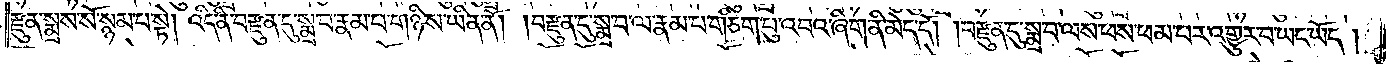རྫུན་སྨྲས་སོ་སྙམ་པ་སྟེ། འདི་ནི་བརྫུན་དུ་སྨྲ་བ་རྣམ་པ་གཉིས་ཡིན་ནོ། །བརྫུན་དུ་སྨྲ་བ་ལ་རྣམ་པ་གཅིག་པུ་འབའ་ཞིག་ནི་མེད་དོ། །བརྫུན་དུ་སྨྲ་བ་ལས་ཕས་ཕམ་པར་འགྱུར་པ་ཡང་ཡོད།
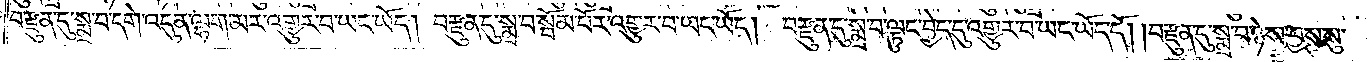བརྫུན་དུ་སྨྲ་བ་དགེ་འདུན་ལྷག་མར་འགྱུར་བ་ཡང་ཡོད། བརྫུན་དུ་སྨྲ་བ་སྦོམ་པོར་འགྱུར་བ་ཡང་ཡོད། བརྫུན་དུ་སྨྲ་བ་ལྟུང་བྱེད་དུ་འགྱུར་བ་ཡང་ཡོད་དོ། །བརྫུན་དུ་སྨྲ་བ་ཉེས་བྱས་སུ་
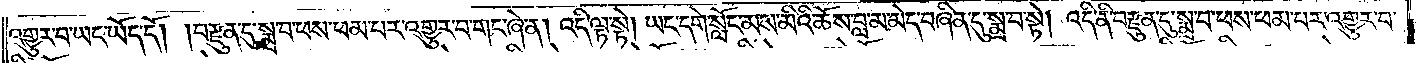འགྱུར་བ་ཡང་ཡོད་དོ། །བརྫུན་དུ་སྨྲ་བ་ཕས་ཕམ་པར་འགྱུར་བ་གང་ཞེ་ན། འདི་ལྟ་སྟེ། ཡང་དགེ་སློང་མས་མིའི་ཆོས་བླ་མ་མེད་བཞིན་དུ་སྨྲ་བ་སྟེ། འདི་ནི་བརྫུན་དུ་སྨྲ་བ་ཕས་ཕམ་པར་འགྱུར་བ་
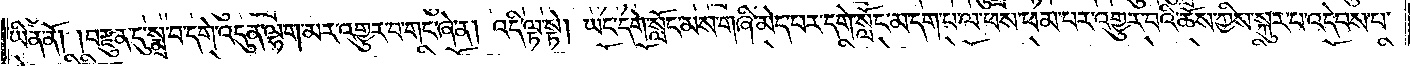ཡིན་ནོ། །བརྫུན་དུ་སྨྲ་བ་དགེ་འདུན་ལྷག་མར་འགྱུར་བ་གང་ཞེ་ན། འདི་ལྟ་སྟེ། ཡང་དགེ་སློང་མས་གཞི་མེད་པར་དགེ་སློང་མ་དག་པ་ལ་ཕས་ཕམ་པར་འགྱུར་བའི་ཆོས་ཀྱིས་སྐུར་པ་འདེབས་པ་
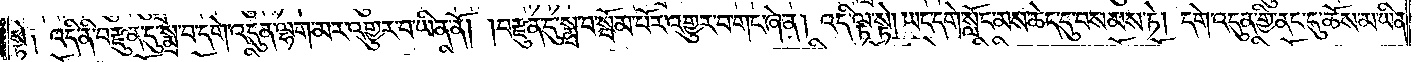སྟེ༑ འདི་ནི་བརྫུན་དུ་སྨྲ་བ་དགེ་འདུན་ལྷག་མར་འགྱུར་བ་ཡིན་ནོ། །བརྫུན་དུ་སྨྲ་བ་སྦོམ་པོར་འགྱུར་བ་གང་ཞེ་ན། འདི་ལྟ་སྟེ། ཡང་དགེ་སློང་མས་ཆེད་དུ་བསམས་ཏེ། དགེ་འདུན་གྱི་ནང་དུ་ཆོས་མ་ཡིན་
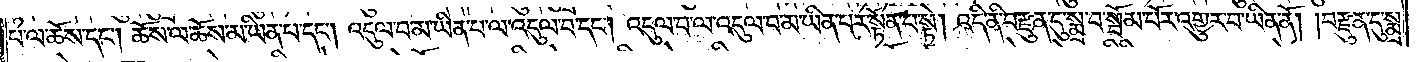པ་ལ་ཆོས་དང༌། ཆོས་ལ་ཆོས་མ་ཡིན་པ་དང༌། འདུལ་བ་མ་ཡིན་པ་ལ་འདུལ་བ་དང༌། འདུལ་བ་ལ་འདུལ་བ་མ་ཡིན་པར་སྟོན་པ་སྟེ། འདི་ནི་བརྫུན་དུ་སྨྲ་བ་སྦོམ་པོར་འགྱུར་བ་ཡིན་ནོ། །བརྫུན་དུ་སྨྲ་
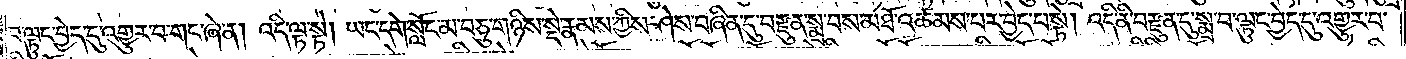བ་ལྟུང་བྱེད་དུ་འགྱུར་བ་གང་ཞེ་ན། འདི་ལྟ་སྟེ། ཡང་དགེ་སློང་མ་བཅུ་གཉིས་སྡེ་རྣམས་ཀྱིས་ཤེས་བཞིན་དུ་བརྫུན་སྨྲ་བས་མཐོ་འཚམས་པར་བྱེད་པ་སྟེ། འདི་ནི་བརྫུན་དུ་སྨྲ་བ་ལྟུང་བྱེད་དུ་འགྱུར་བ་
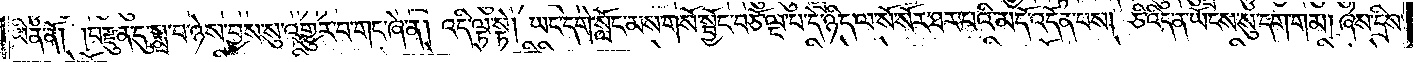ཡིན་ནོ། །བརྫུན་དུ་སྨྲ་བ་ཉེས་བྱས་སུ་འགྱུར་བ་གང་ཞེ་ན། འདི་ལྟ་སྟེ། ཡང་དགེ་སློང་མས་གསོ་སྦྱོང་བཅོ་ལྔ་པ་དེ་ཉིད་ལ་སོ་སོར་ཐར་པའི་མདོ་འདོན་པས། ཅི་འདི་ན་ཡོངས་སུ་དག་གམ། ཞེས་དྲིས་
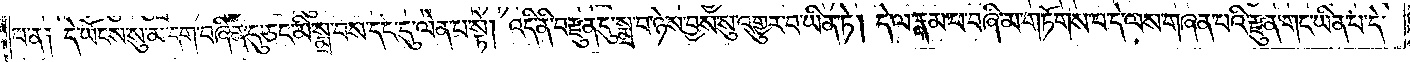པ་ན༑ དེ་ཡོངས་སུ་མ་དག་བཞིན་དུ་ཅང་མི་སྨྲ་བས་དང་དུ་ལེན་པ་སྟེ། འདི་ནི་བརྫུན་དུ་སྨྲ་བ་ཉེས་བྱས་སུ་འགྱུར་བ་ཡིན་ཏེ། དེ་ལ་རྣམ་པ་བཞི་མ་གཏོགས་པ་དེ་ལས་གཞན་པའི་རྫུན་གང་ཡིན་པ་དེ་
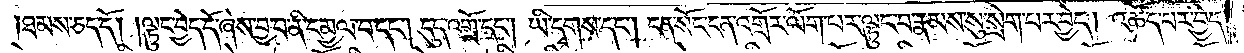།ཐམས་ཅད་དོ། །ལྟུང་བྱེད་དོ་ཞེས་བྱ་བ་ནི་དམྱལ་བ་དང༌། དུད་འགྲོ་དང༌། ཡི་དྭགས་དང༌། ངན་སོང་ངན་འགྲོར་ལོག་པར་ལྟུང་བ་རྣམས་སུ་སྲེག་པར་བྱེད། འཚོད་པར་བྱེད་
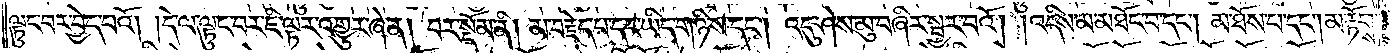ལྟུང་བར་བྱེད་པའོ། །དེ་ལ་ལྟུང་བར་ཇི་ལྟར་འགྱུར་ཞེ་ན། བར་སྡོམ་ནི། མ་བརྗེད་པ་དང་ཡིད་གཉིས་དང༌། འདུ་ཤེས་མུ་བཞིར་སྦྱར་བའོ། །འདིས་མ་མཐོང་བ་དང༌། མ་ཐོས་པ་དང༌། མ་རྟོགས་
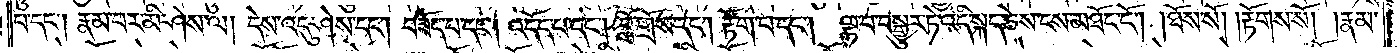པ་དང༌། རྣམ་པར་མི་ཤེས་ལ། དེས་འདུ་ཤེས་དང༌། བཟོད་པ་དང༌། འདོད་པ་དང༌། བློ་གྲོས་དང༌། རྟོག་པ་དང༌། ལྟ་བ་བསྒྱུར་ཏེ་འདི་སྐད་ཅེས་ངས་མཐོང་ངོ༌། །ཐོས་སོ། །རྟོགས་སོ། །རྣམ་
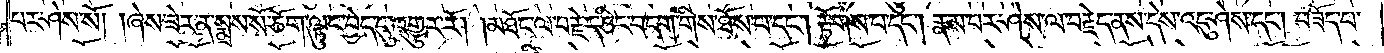པར་ཤེས་སོ། །ཞེས་ཟེར་ན་སྨྲས་སོ་ཅོག་ལྟུང་བྱེད་དུ་འགྱུར་རོ། །མཐོང་ལ་བརྗེད་ཅིང་བདག་གིས་ཐོས་པ་དང༌། རྟོགས་པ་དང༌། རྣམ་པར་ཤེས་ལ་བརྗེད་ནས་དེས་འདུ་ཤེས་དང༌། བཟོད་པ་
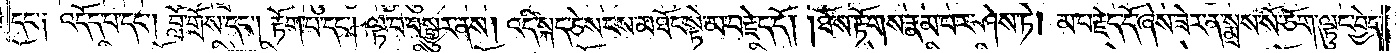དང་༑ འདོད་པ་དང༌། བློ་གྲོས་དང༌། རྟོག་པ་དང༌། ལྟ་བ་བསྒྱུར་ནས། འདི་སྐད་ཅེས་ངས་མཐོང་སྟེ་མ་བརྗེད་དོ། །ཐོས་རྟོགས་རྣམ་པར་ཤེས་ཏེ། མ་བརྗེད་དོ་ཞེས་ཟེར་ན་སྨྲས་སོ་ཅོག་ལྟུང་བྱེད་
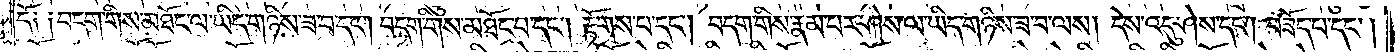དོ༑ ༑བདག་གིས་མཐོང་བླ་ཡིད་གཉིས་ཟ་བ་དང༌། བདག་གིས་མཐོང་བ་དང༌། རྟོགས་པ་དང༌། བདག་གིས་རྣམ་པར་ཤེས་ལ་ཡིད་གཉིས་ཟ་བ་ལས། དེས་འདུ་ཤེས་དང༌། བཟོད་པ་དང༌།
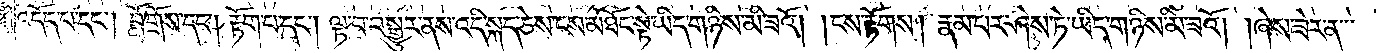འདོད་པ་དང༌། བློ་གྲོས་དང༌། རྟོག་པ་དང༌། ལྟ་བ་བསྒྱུར་ནས་འདི་སྐད་ཅེས་ངས་མཐོང་སྟེ་ཡིད་གཉིས་མི་ཟའོ། །ངས་རྟོགས། རྣམ་པར་ཤེས་ཏེ་ཡིད་གཉིས་མི་ཟའོ། །ཞེས་ཟེར་ན་
